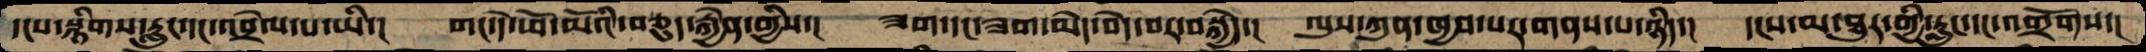དངས་སྙིགས་རླུང་དང་འབྲེལ་པ་ཡི་།   གང་དེ་ཕོ་མོའི་བཅུད་རྐྱེན་གྱིས་།  ཟག་དང་ཟག་མེད་བདེ་བར་བསྐྱེད་།  ལུས་ཀུན་ཁྱབ་པར་གནས་པ་ཉིད་།  དངས་མ་ཐུར་གྱི་རླུང་དང་འགྲོགས་།
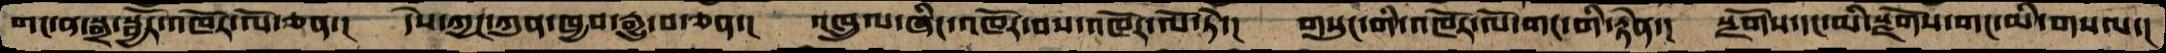གང་ན་སྒྲ་སྦྱོར་འཁོར་ལོ་ཅན་།   དེས་ཀྱང་ཀུན་ཁྱབ་རྒྱུ་བ་ཅན་།  འཁྲུལ་ཞིང་འཁོར་བས་འཁོར་ལོ་ཏེ་།  གསུང་གི་འཁོར་ལོ་གང་གི་རྟེན་།  སྫོགས་དང་མི་སྫོགས་གང་མི་གསལ་།
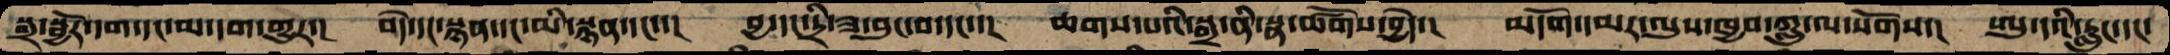སྒྲ་སྦྱོར་དག་དང་མ་དག་གྱུར་།  བདེ་དང་སྙན་དང་མི་སྙན་དང་་།   བྱ་དང་དྲི་ཟ་བུང་བ་དང་་།   ཆགས་པའི་སྒྲ་ནི་སྣ་ཚོགས་བྱེད་།  མདོག་དམར་ལུས་ཁྱབ་ཀླུ་ལ་སོགས་།  ཨུ་དའི་རླུང་དང་
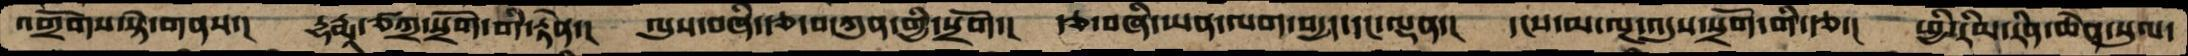འགྲོགས་སྟེ་གནས་།   དྡྷརྨཱ་ཙཀྲ་སྲོག་གི་རྟེན་།   ལུས་བཞི་རྩ་བ་ཀུན་གྱི་སྲོག་།  རྩ་བཞི་ཡན་ལག་བདྱད་དང་ལྡན་།   དངས་མ་ལྔ་འདུས་སྲོག་གི་རྩ་།  ཕྱི་རིམ་རིན་ཆེན་སུལ་
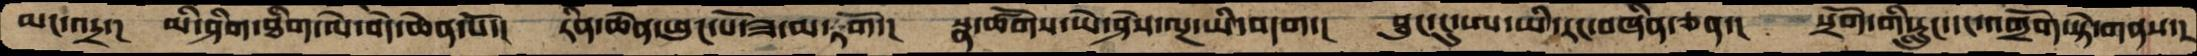མང་འདྲ་།  མི་ཤིག་ཐིག་ལེ་བདེ་ཆེན་པོ་།  རིན་ཆེན་ཕུང་པོ་ཟ་མ་རྟོག་།  སྣ་ཚོགས་ཡེ་ཤེས་ལྔ་ཡི་བདག་།   ཐུང་ངུ་ཨ་ཡི་རང་བཞིན་ཅན་།   སྲོག་གི་རླུང་དང་འགྲོག་སྟེ་གནས་།
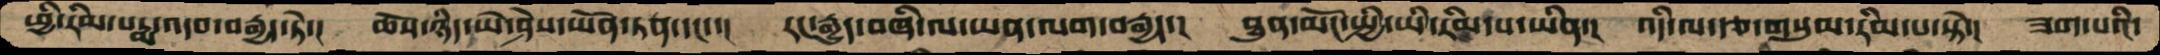ཕྱི་རིམ་པདྨ་འདབ་བརྒྱད་ཏེ་།  ཆོས་ཉིད་ཡེ་ཤེས་ཡོན་ཏན་དང་་།  རང་རྒྱུད་བཞི་ལ་ཡན་ལག་བརྒྱད་།   ཐུན་མོང་སྤྱི་ཡི་རིམ་པ་ཡིན་།  འདི་ལ་རྩ་གསུམ་རིམ་པ་སྟེ་།  ཟག་པའི་
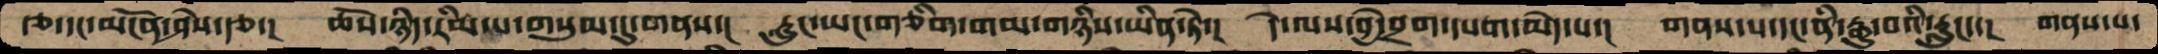རྩ་དང་མངོན་ཤེས་རྩ་།  ཆོས་ཉིད་རིམ་པ་གསུམ་དུ་གནས་།  རླུང་ཡང་གཅིག་གམ་གཉིས་ཡིན་ཏེ་།  དེ་ལས་བྱེ་བྲག་དཔག་མེད་པ་།  གནས་པ་དང་ནི་རྒྱུ་བའི་རླུང་་།  གནས་པ་
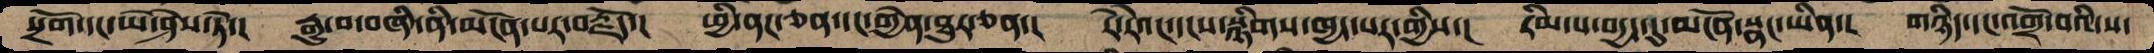སྲོག་དང་ཡེ་ཤེས་ཏེ་།  རྒྱུ་བ་བཞི་ནི་མངོན་པར་བརྗོད་།  ཕྱི་ནང་ཅན་དང་གྱེན་ཐུར་ཅན་།  རེ་རེའང་དངས་སྙིགས་ཁྱད་པར་གྱིས་།  རིམ་པ་བདྱད་དུ་མངོན་སྣང་ཡིན་།  གཉིད་དང་འགྲོ་བའི་ས་
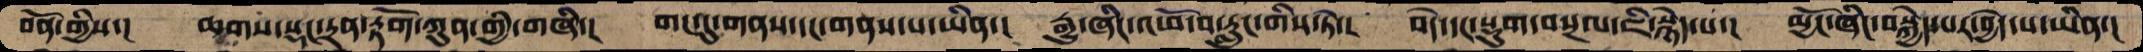བོན་གྱིས་།  ཆགས་སྡང་དྲན་རྟོག་ཀུན་གྱི་གཞི་།  གང་དུ་གནས་དང་གནས་པ་ཡིན་།  རྒྱུ་ཞིང་འཕོ་བ་རླུང་གིས་ཏེ་།  བདེ་དང་སྡུག་བསྔལ་ཇི་སྙེད་པ་།  མྱོང་ཞིང་བསྐྱེད་པར་བྱེད་པ་ཡིན་།
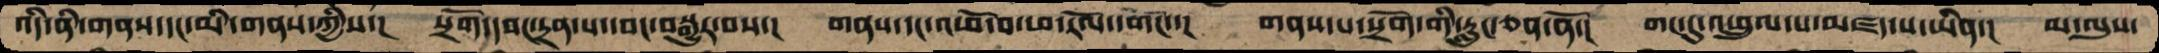འདི་ནི་གནས་དང་མི་གནས་ཀྱིས་།  སྲོག་དབང་དྲན་པ་དབང་བསྒྱུར་བས་།  གནས་དང་འཕོ་བ་ཕ་རོལ་དགོང་་།  གནས་པ་སྲོག་གི་རླུང་ཅན་ནོ་།  གང་དུ་འཕྲུལ་པ་མཛད་པ་ཡིན་།  མ་ལུས་
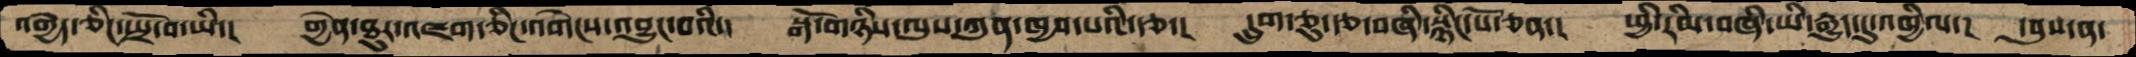འགྱེད་ཅིང་སྤྲོ་བ་ཡི་།  གྱེན་ཐུར་འཛག་ཅིང་འགེངས་འབྱུང་བའི་།  སྒོ་གཉིས་ལུས་ཀུན་ཁྱབ་པའི་རྩ་།  དྲུག་ཅུ་རྩ་བཞི་སྙིང་པོ་ཅན་།  ཕྱི་རིམ་བཞི་ཡི་རྒྱུད་དུ་འཁྱིལ་།  དབུས་ན་
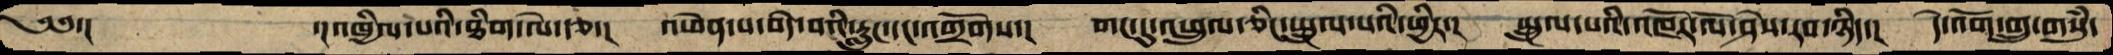༄༅་།           ་།འཁྱིལ་པའི་ཐིག་ལེ་རྩ་།  འཕེན་པ་བདེ་བའི་རླུང་དང་འགྲོགས་།  གང་དུ་འཕྲུལ་ཅིང་སྤྲུལ་པའི་ཕྱིར་།  སྤྲུལ་པའི་འཁོར་ལོ་ཤེས་རབ་ཉིད་།  དེ་འོག་གྲུ་གསུཾ་
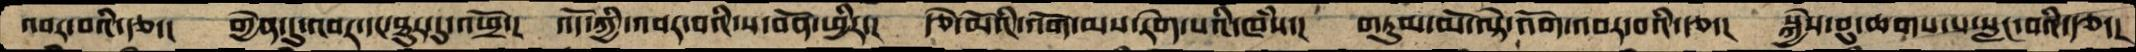འབར་བའི་རྩ་།   གྱེན་དུ་འབར་དང་ཐུར་དུ་འཕྲོ་།  འོད་ཀྱི་འབར་བའི་ས་བོན་ཕྱིར་།  རྩེ་མོའི་འོག་མས་རེག་པའི་ཁཾས་།  གཏུམ་མོ་ལྟེ་འོག་འབར་བའི་རྩ་།  སྐྱེས་བུ་ཆགས་པ་སླང་བའི་རྩ་།
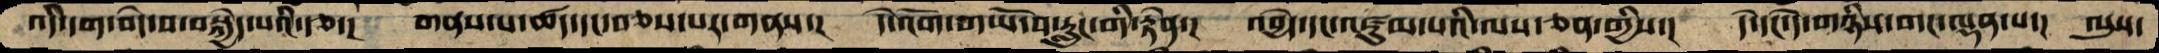འདི་དག་བདེ་བ་བསྐྱེད་པའི་རྩ་།   གནས་པ་ཚད་དང་བཅས་པར་གནས་།  དེ་འོག་གཡོ་བ་རླུང་གི་རྟེན་།  འབྱེད་དང་འཛུམ་པའི་ལས་ཅན་གྱིས་།  དེ་དང་དེ་གཉིས་གང་ལྡན་པ་།  ལུས་
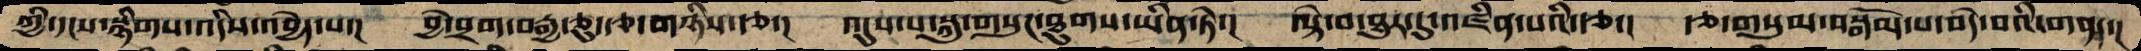ཀྱི་དངས་སྙིགས་འདིས་འབྱེད་པ་།  བྱེ་བྲག་བརྒྱ་ཅུ་རྩ་གཉིས་རྩ་།  འདུས་པ་སྐུ་གསུང་ཐུགས་ཡིན་ཏེ་།  ལྟེ་བ་ཐུར་དུ་འཛིན་པའི་རྩ་།  རྩ་གསུམ་བསྒོམ་པ་བདེ་བའི་གནད་།
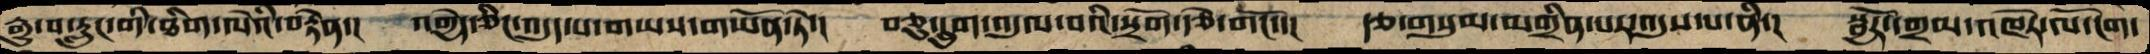རྒྱུ་བ་རླུང་གི་ཐིག་ལེའི་བརྟེན་།  འགྱེད་ཅིང་འདུད་པ་གཡས་གཡོན་ཏེ་།  བཅུ་དྲུག་འདུལ་བའི་སྲོག་རྩེ་གོང་་།  རྩ་གསུམ་མགྲིན་པར་འདུས་པ་ནི་།  སྦྱོར་གྲམ་འཁོར་ལོ་ངག་
